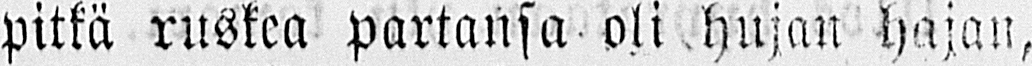pitkä ruskea partansa oli hujan hajan,
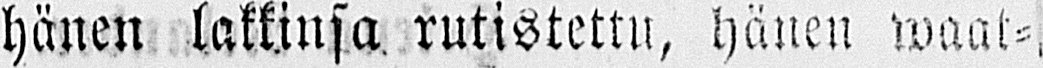hänen lakkinsa rutistettu, hänen waat-
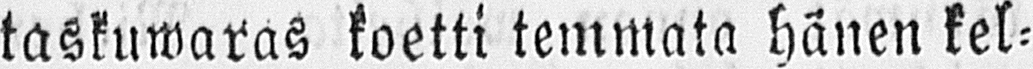taskuwaras koetti temmata hänen kel-
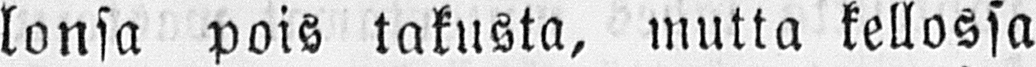lonsa pois takusta, mutta kellossa
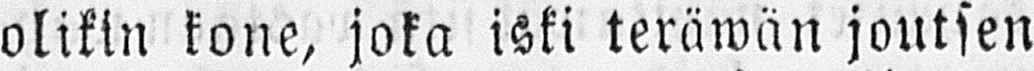olikin kone, joka iski teräwän joutsen
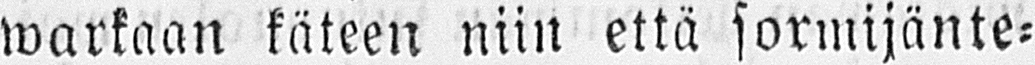warkaan käteen niin että sormijänte-
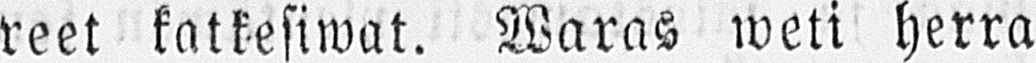reet katkesiwat. Waras weti herra
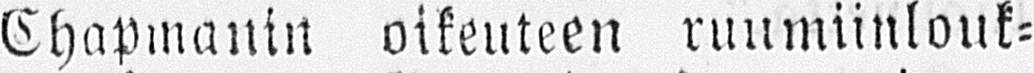Chapmanin oikeuteen ruumiinlouk-
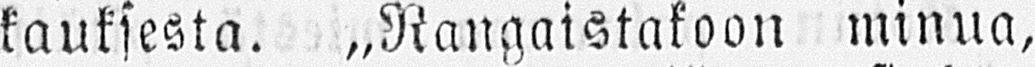kauksesta. „Rangaistokoon minua,
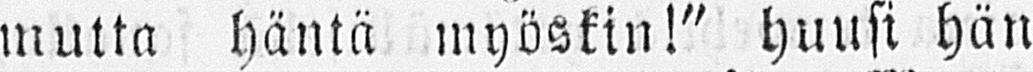mutta häntä myöskin!" huusi hän
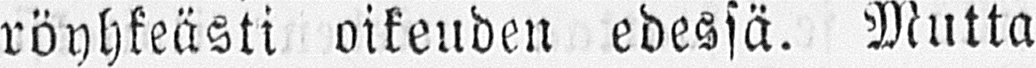röyhkeästi oikeuden edessä. Mutta
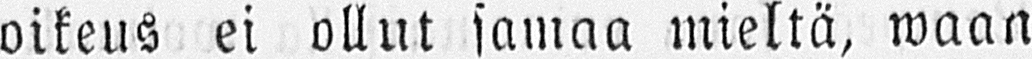oikeus ei ollut samaa mieltä, waan
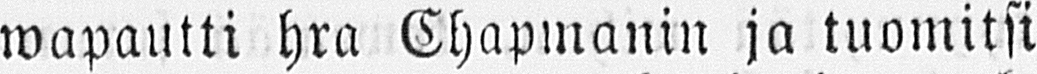wapautti hra Chapmanin ja tuomitsi
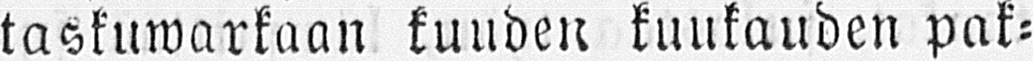taskuwarkaan kuuden kuukauden pak-
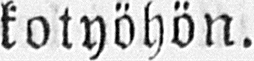kotyöhön.
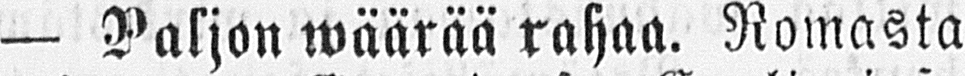— Paljon wäärää rahaa. Romasta
